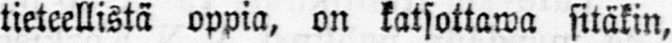tieteellistä oppia, on katsottawa sitäkin,
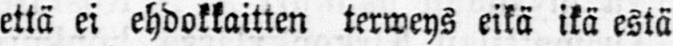että ei ehdokkaitten terweys eikä ikä estä
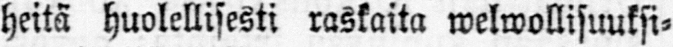heitä huolellisesti raskaita welwollisuuksi-
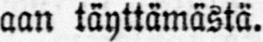aan täyttämästä.
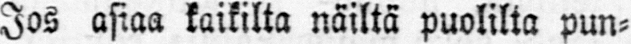Jos asiaa kaikilta näiltä puolilta pun-
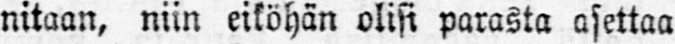nitaan, niin eiköhän olisi parasta asettaa
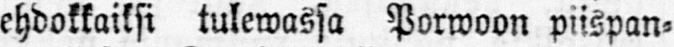ehdokkaiksi tulewassa Porwoon piispan-
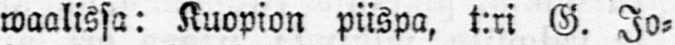waalissa: Kuopion piispa, t:ri G. Jo-
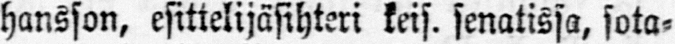hansson, esittelijäsihteri keis. senatissa, sota-
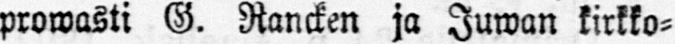prowasti G. Rancken ja Juwan kirkko-
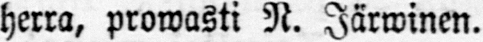herra, prowasti N. Järwinen.
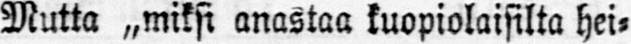Mutta ˶miksi anastaa kuopiolaisilta hei-
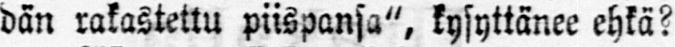dän rakastettu piispansa", kysyttänee ehkä?
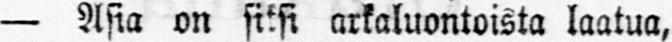— Asia on siksi arkaluontoista laatua,
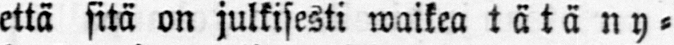että sitä on julkisesti waikea tätä ny-
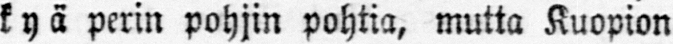kyä perin pohjin pohtia, mutta Kuopion
